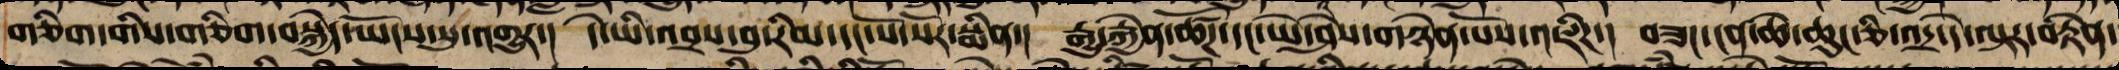གཅིག་གིས་གཅིག་བསྐྱེད་ཡོངས་སུ་འགྱུར་། དེ་ཡི་འབྲས་བུ་རིམ་དང་སོ་སོར་སྨིན་། རྒྱུ་རྐྱེན་ཚོཌ་དང་ཡེ་ཤེས་གཉེན་པོས་འཇིག། བཟང་ངན་ཆེ་ཆུང་ཅི་འདྲ་དེ་ལྟར་བརྟེན་
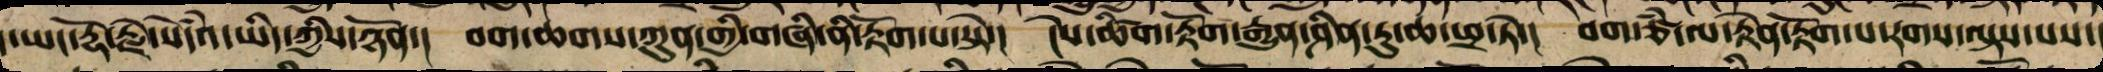ད་ཡང་རྡོ་རྗེ་སེཾས་དཔའ་ཡིད་ཀྱིས་ཉོན་། བག་ཆཌ་ཀུན་གྱི་གཞི་ནི་རྟོག་པ་སྟེ་། ངེས་ཚིག་རྟོག་རྒྱུན་ཤིན་ཏུ་ཆ་ཕྲ་ཏེ་། བག་ཙཾ་ལ་རྟེན་རྟོག་པ་རགས་ལྟས་པས་།
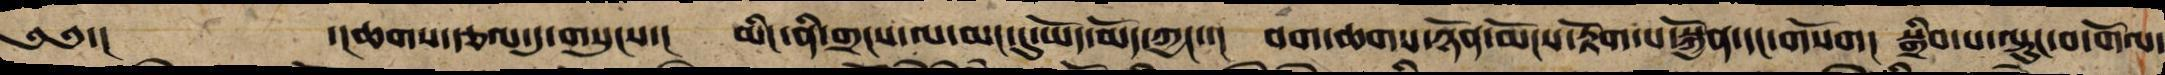༄༅་། ་།ཆགས་རྩལ་དུ་གསུངས་། མིང་ནི་གྲངས་ལ་མང་དུ་ཡོད་མོད་ཀྱང་། བག་ཆགས་ཉོན་མོངས་རྟོག་པ་སྐྱོན་དང་གསོག། སྒྲིབ་པ་ལྟུང་བ་གོལ་
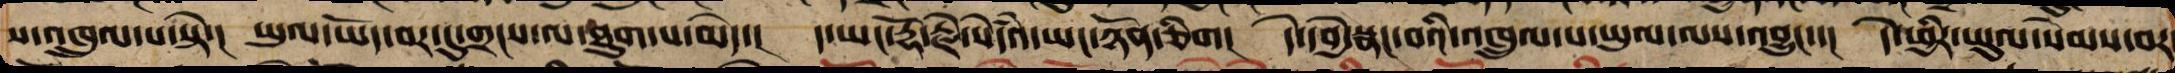ས་འཁྲུལ་པ་སྟེ་། ཡུལ་ཡོད་བར་དུ་གྲངས་ལ་ཐུག་པ་མེད་། ད་ཡང་རྡོ་རྗེ་སེདཾའ་ཡང་ཉོན་ཅིག། དེ་དབྱེ་སྣང་བའི་འཁྲུལ་པ་ཡུལ་ལས་འབྱུང་། དེ་ཕྱིར་ཡུལ་སེམས་བར
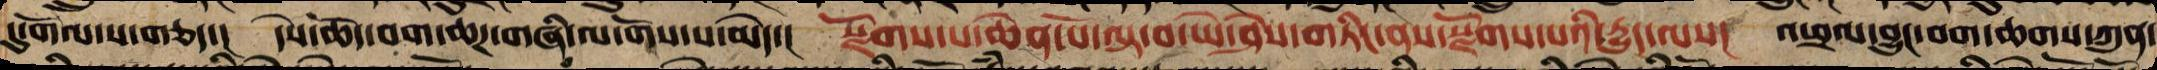དུ་གོལ་ས་གཅད་། དེས་ཆོད་བག་ཆཌ་གཞི་ལ་གོས་པ་མེད་། སྫོགས་པ་ཆེན་པོ་ལྟ་བ་ཡེ་ཤེས་གཏིང་ནས་སྫོགས་པའི་རྒྱུད་ལས། འཕྲལ་བྱུང་བག་ཆགས་ཀུན་
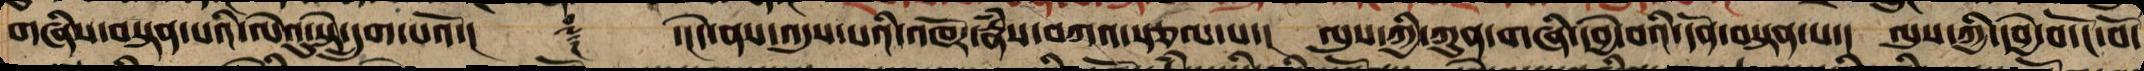གཞིས་བསྟན་པའི་ལེའུ་སྟེ་དྲུག་པའོ་།། ༈ ་།དེ་ནས་འདུས་པའི་འཁོར་རྣཾས་བཀའ་སྩལ་པ་། ལུས་ཀྱི་ཀུན་གཞི་དབྱེ་བའི་དོན་བསྟན་པ་། ལུས་ཀྱི་དབྱེ་བ་ངོ་བོ་
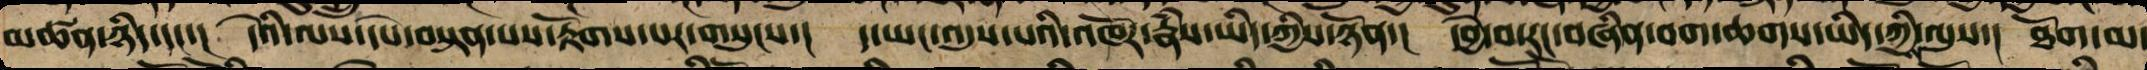མཚན་ཉིད་དང་། དེའི་ལས་དཔེ་བསྟན་པས་རྟོགས་པར་གསུངས་། ད་ཡང་འདུས་པའི་འཁོར་རྣཾས་ཡིད་ཀྱིས་ཉོན་། དབྱེ་བ་རང་བཞིན་བག་ཆགས་ཡིད་ཀྱི་ལུས་། ཐོག་མ་
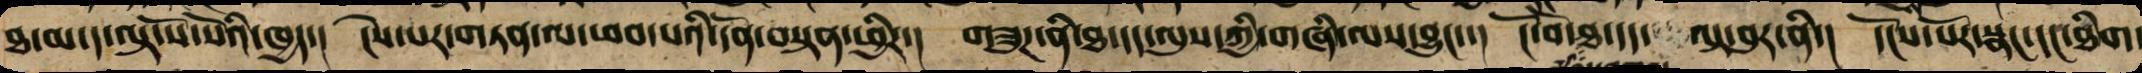ཐ་མ་ད་ལྟ་སོ་སོའི་ཁྱད་། ངེས་པར་གཏན་ལ་ཕབ་པའི་དོན་བསྟན་ཕྱིར། གཟུཌ་ནི་ཐ་དད་ལུས་ཀྱི་གཞི་ལས་བྱུང་། ངོ་བོ་ཐ་དད་ལྟ་བུར་ནི་། དངོས་པོར་སྣང་དང་ཐིག་
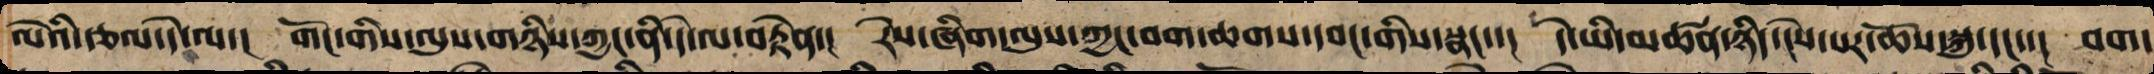ལེའི་རྩལ་དེ་ལ་། གོང་གི་ལུས་གཉིས་ཀྱང་ནི་དེ་ལ་བརྟེན་། རེ་ཞིག་ལུས་ཀྱང་བག་ཆགས་དབང་གིས་སྣང་་། དེ་ཡི་མཚན་ཉིད་ངེས་པར་ཆོས་སྐུ་དང་། བག་
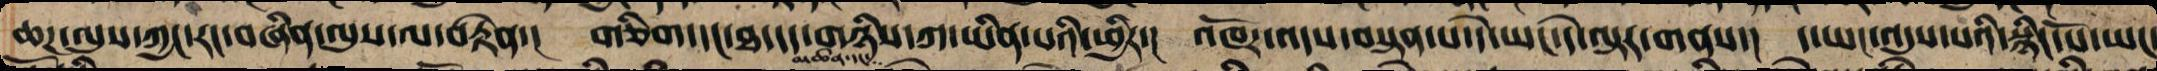ཆཌ་ལུས་ཀྱང་རང་བཞིན་ལུས་ལ་བརྟེན་། གཅིག་དང་ཐ་དད་གཉིས་ཀ་ཡིན་པའི་ཕྱིར་། འཁོར་འདས་བརྟེན་པ་དེ་ཡང་དེ་ལྟར་གནས་། ད་ཡང་འདུས་པའི་སྙིང་པོ་ཡང་
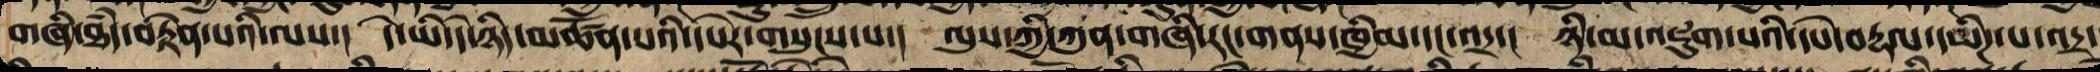གཞི་ཐཾད་བརྟེན་པའི་ལས་། དེ་ཡི་དེ་ཉིད་མཚོན་པའི་དཔེར་གསུངས་པ་། ལུས་ཀྱི་ཀུན་གཞི་རང་གནས་ཁྱིམ་དང་འདྲ་། ཉི་མ་འཇུག་པའི་དཔེ་བརྡལ་དམིཌ་པ་འདྲ་
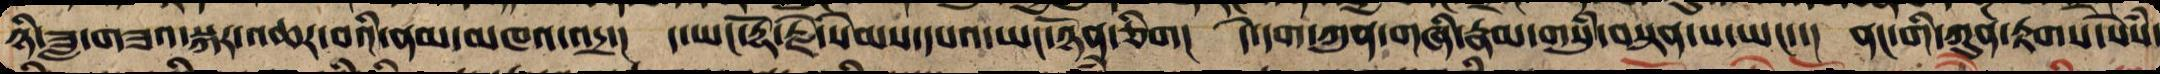ཉི་ཟླ་གཟའ་སྐར་འཆར་བའི་ནམ་མཁའ་འདྲ་། ད་ཡང་རྡོ་རྗེ་སེམས་དཔའ་ཡང་ཉོན་ཅིག། དེ་དག་ཀུན་གཞི་རྣམ་གསུཾ་བསྟན་པ་ཡང་། ནང་གི་ཀུན་རྟགས་སེཾས་
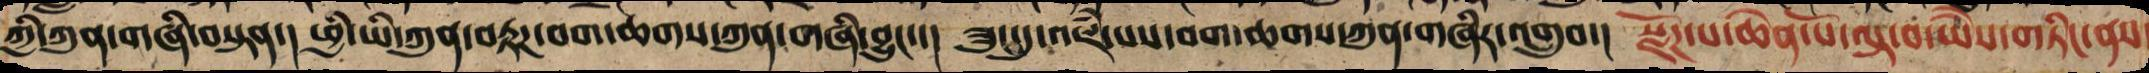ཀྱི་ཀུན་གཞི་བསྟན་། ཕྱི་ཡི་ཀུན་བརྟཌ་བག་ཆགས་ཀུན་གཞི་བྱུང་། ཟུང་དུ་འཇཾ་པས་ལུས་ཀྱི་ཀུན་གཞིར་འགྲུབ་། སྫོཌ་པ་ཆེན་པོ་ལྟ་བ་ཡེ་ཤེས་གཏིང་ནས་
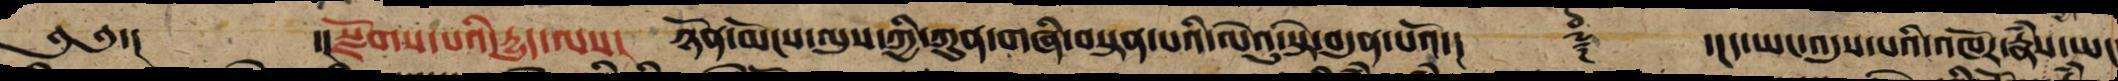༄༅་། ་།སྫོགས་པའི་རྒྱུད་ལས། ཉོན་མོངས་ལུས་ཀྱི་ཀུན་གཞི་བསྟན་པའི་ལེའུ་སྟེ་བདུན་པའོ་།། ༈ ་།ད་ཡང་འདུས་པའི་འཁོར་རྣཾས་ཡང་
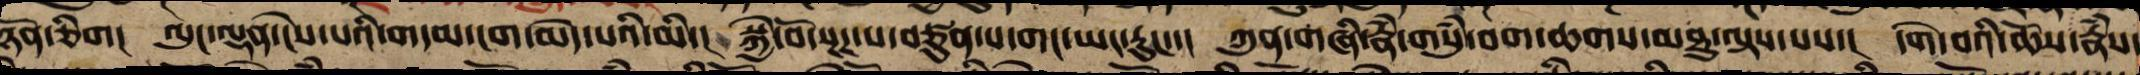ཉོན་ཅིག། ལུང་ལྡན་ངེས་པའི་གདམ་ངག་མེད་པའི་མི་། སྐྱེ་བོ་སྔཌ་པ་བཙུན་པ་གང་ཡང་རུང་། ཀུན་གཞི་རྣཾ་གསུཾ་བག་ཆགས་མཐུ་ལྟས་པས་། དགེ་བའི་ཆོས་རྣཾས་
